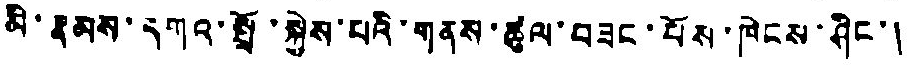མི་རྣམས་དགའ་སྤྲོ་སྐྱེས་པའི་གནས་ཚུལ་བཟང་པོས་ཁེངས་ཤིང་།
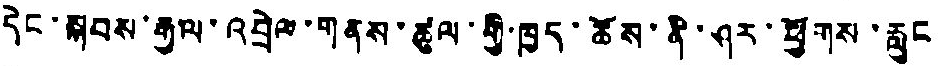དེང་སྐབས་རྒྱལ་འབྲེལ་གནས་ཚུལ་གྱི་ཁྱད་ཆོས་ནི་ཤར་ཕྱོགས་རླུང
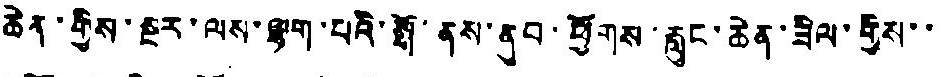ཆེན་གྱིས་སྔར་ལས་ལྷག་པའི་སྒོ་ནས་ནུབ་ཕྱོགས་རླུང་ཆེན་ཟིལ་རྒྱིས་་
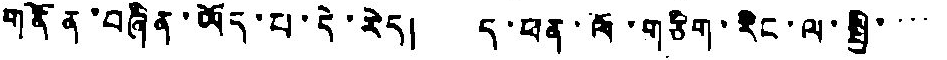གནོན་བཞིན་ཡོད་པ་དེ་རེད། ད་ཕན་ལོ་གཅིག་རིང་ལ་སྤྱི་་་་
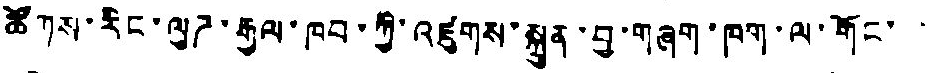ཚོགས་རིང་ལུཌ་རྒྱལ་ཁབ་ཀྱི་འཛུགས་སྐྲུན་བྱ་གཞག་ཁག་ལ་གོང་་
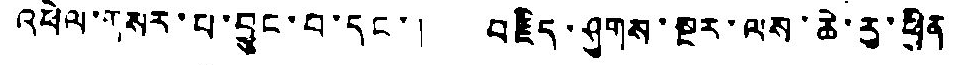འཕེལ་གསར་པ་བྱུང་བ་དང་། བརྗིད་ཤུགས་སྔར་ལས་ཆེ་རུ་ཕྱིན
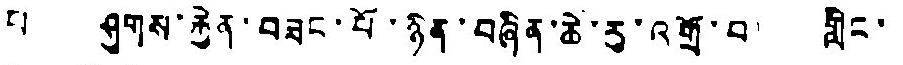པ། ཤུགས་རྐྱེན་བཟང་པོ་ཉིན་བཞིན་ཆེ་རུ་འགྲོ་བ་ གླིང་
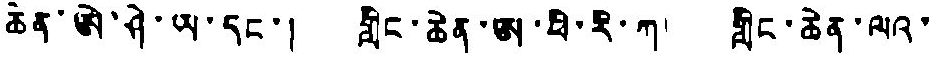ཆེན་ཨེ་ཤེ་ཡ་དང་། གླིང་ཆེན་ཨ་ཕི་རི་ཀ། གླིང་ཆེན་ལའ་
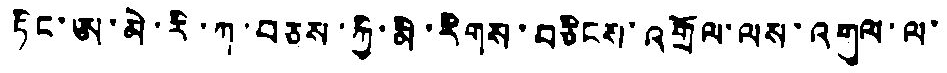ཏིང་ཨ་མེ་རི་ཀ་བཅས་ཀྱི་མི་རིགས་བཅིངས་འགྲོལ་ལས་འགུལ་ལ་
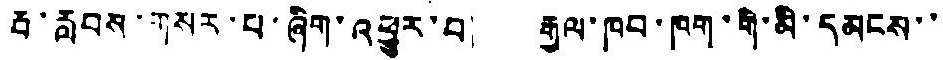རྦ་རླབས་གསར་པ་ཞིག་འཕྱུར་བ། རྒྱལ་ཁབ་ཁག་གི་མི་དམངས་་
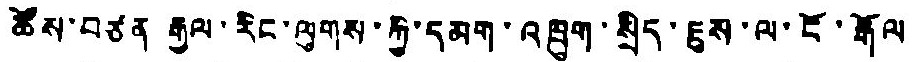ཚོས་བཙན རྒྱལ་རིང་ལུགས་ཀྱི་དམག་འཁྲུག་སྲིད་ཇུས་ལ་ངོ་རྒོལ
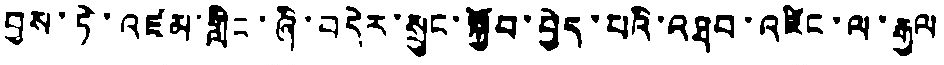བྱས་ཏེ་འཛམ་གླིང་ཞི་བདེར་སྲུང་སྐྱོབ་བྱེད་པའི་འཐབ་འཛིང་ལ་རྒྱལ
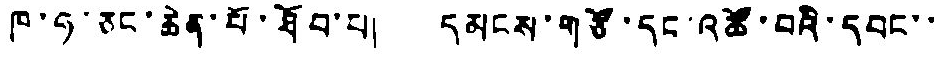ཁ་ཧ་ཅང་ཆེན་པོ་ཐོབ་པ། དམངས་གཙོ་དང་འཚོ་བའི་དབང་་
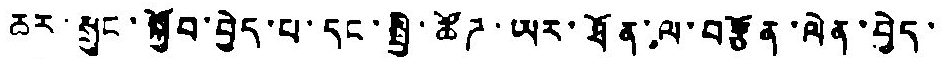ཆར་སྲུང་སྐྱོབ་བྱེད་པ་དང་སྤྱི་ཚོཌ་ཡར་ཐོན་ལ་བརྩོན་ལེན་བྱེད་
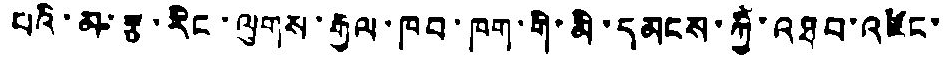པའི་མ་རྩ་རིང་ལུགས་རྒྱལ་ཁབ་ཁག་གི་མི་དམངས་རྐྱེ་འཐབ་འཛིང་
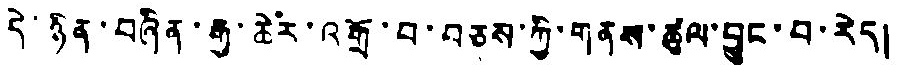དེ་ཉིན་བཞིན་རྒྱ་ཆེར་འགྲོ་བ་བཅས་ཀྱི་གནས་ཚུལ་བྱུང་བ་རེད།
